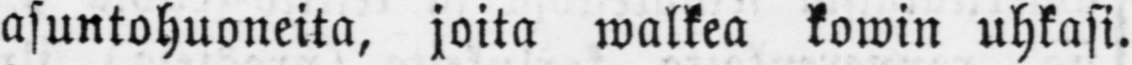asuntohuoneita, joita walkea kowin uhkasi.
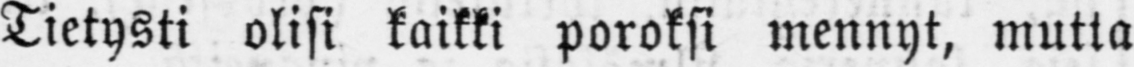Tietysti olisi kaikki poroksi mennyt, mutta
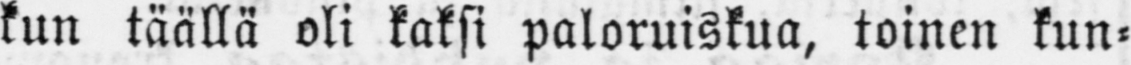kun täällä oli kaksi paloruiskua, toinen kun-
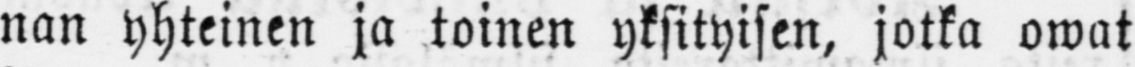nan yhteinen ja toinen yksityisen, jotka owat
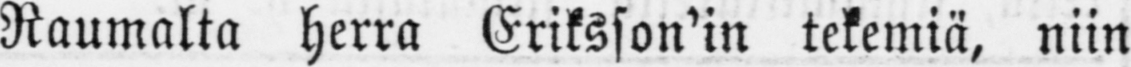Raumalta herra Eriksson'in tekemiä, niin
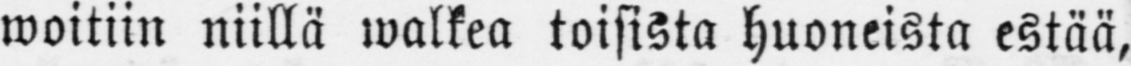woitiin niillä walkea toisista huoneista estää,
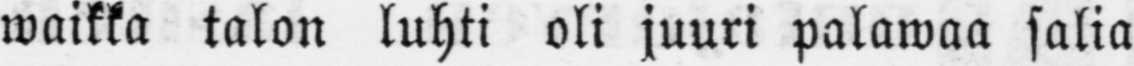waikka talon luhti oli juuri palawaa salia
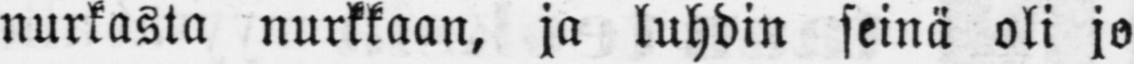nurkasta nurkkaan, ja luhdin seinä oli jo
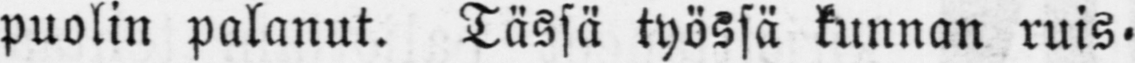puolin palanut. Tässä työssä kunnan ruis-
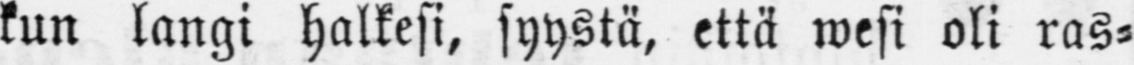kun langi halkesi, syystä, että wesi oli ras-
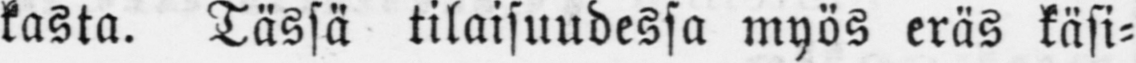kasta. Tässä tilaisuudessa myös eräs käsi-
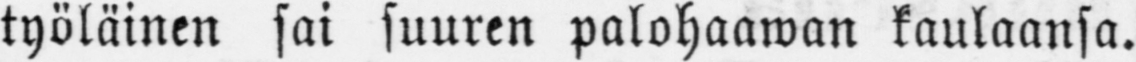työläinen sai suuren palohaawan kaulaansa.
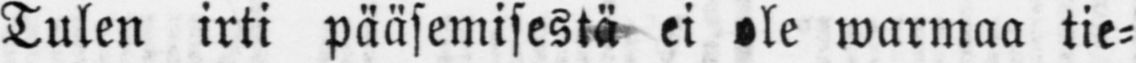Tulen irti pääsemisestä ei ole warmaa tie-
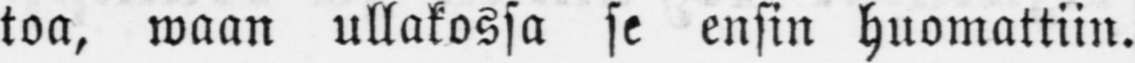toa, waan ullakossa se ensin huomattiin.
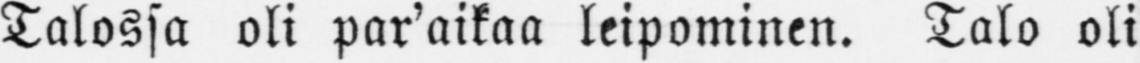Talossa oli par'aikaa leipominen. Talo oli
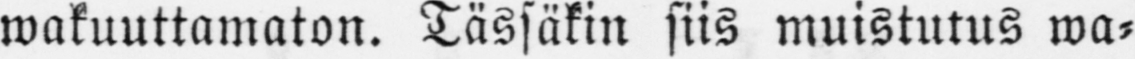wakuuttamaton. Tässäkin siis muistutus wa-
